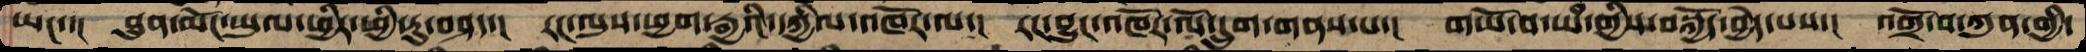ཡང་་།  ཐུན་མོང་ཡུལ་ཕྱིར་ཕྱི་རུ་བཤད་།   རང་ལུས་ཕྱག་རྒྱའི་དཀྱིལ་འཁོར་ལ་།  རང་བྱུང་འཁོར་ལོ་དྲུག་གནས་པ་།  གཡོ་བ་ཡཾ་གྱིས་བསྐྱོད་བྱེད་པས་།  འགྲོ་བ་ཀུན་གྱི་
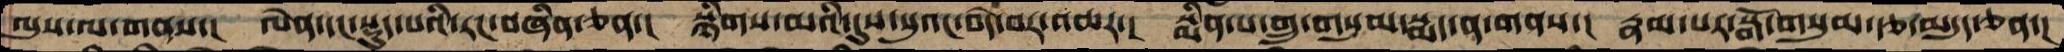ལུས་ལ་གནས་།   ལེན་དང་སྡུད་པའི་རང་བཞིན་ཅན་།  སྙིགས་མའི་དུས་སུའང་བདེ་བར་འཆར་།  སྨིན་པ་གྲུ་གསུམ་སྨད་ན་གནས་།  རྣམ་པར་སྒོ་གསུམ་རྩ་མདུད་ཅན་།
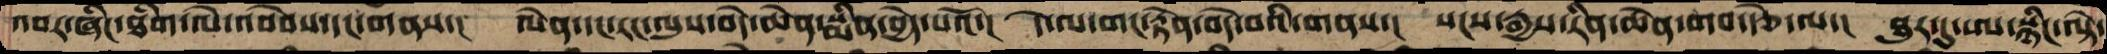འབར་ཤིང་ཐིག་ལེ་འབེབས་དང་གནས་།  ལེན་དང་རང་ལུས་བདེ་ཆེན་སྨིན་བྱེད་པའོ་།  དེ་ལ་གང་རྟེན་བདེ་བའི་གནས་།  སངས་རྒྱས་རིན་ཆེན་གབ་རྩེ་ལ་།  ཐུར་དུ་ཨ་སྙིང་ལྟེ་
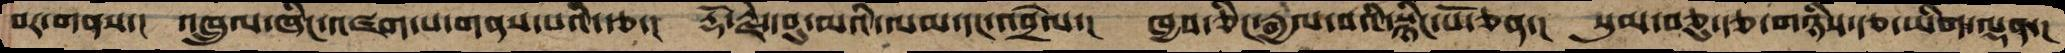བར་གནས་།  འཁྲུལ་ཞིང་འཛག་པ་གནས་པའི་རྩ་།   རྡོ་རྗེ་དབུ་མའི་ལམ་དང་འབྲེལ་།  ཁྱབ་ཅིང་རྒྱལ་བའི་སྙིང་པོ་ཅན་།  སུམ་བཅུ་རྩ་གཉིས་རྩ་ཡིག་ལྡན་།
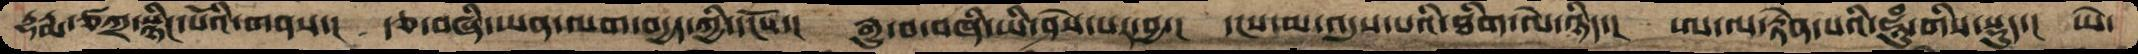དྷརྨ་ཙཀྲ་སྙིང་པོའི་གནས་།  རྩ་བཞི་ཡན་ལག་བདྱད་ཀྱི་དངོས་།  རྒྱུ་བ་བཞི་ཡི་ཤེས་པར་བྱ་།  དངས་མ་འདུས་པའི་ཐིག་ལེ་ཉིད་།  ཨ་ལ་རྟེན་པའི་ཧཱུཾ་གིས་སྡུད་།  ཡེ་
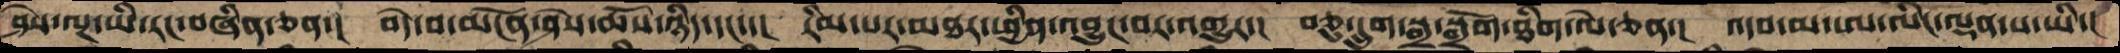ཤེས་ལྔ་ཡི་རང་བཞིན་ཅན་།  བདེ་བ་མངོན་ཤེས་ཆོས་ཉིད་དང་་།  རིམ་པར་མཐར་ཕྱིན་འབྱུང་བར་འགྱུར་།  བཅུ་དྲུག་སྒྲ་སྒྲོག་ཐིག་ལེ་ཅན་།  འདབ་མ་ཨ་ལིང་ལྡན་པ་ཡི་།
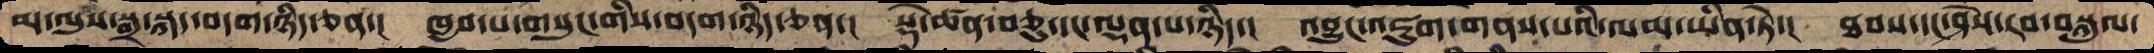མ་ལུས་སྒྲ་སྐད་བདག་ཉིད་ཅན་།  ཁྱབ་པ་གསུང་གིས་བདག་ཉིད་ཅན་།  སྡེ་ཚན་བཅུ་དང་ལྡན་པ་ཉིད་།  འབྱུང་འཇུག་གནས་པའི་ལམ་ཡིན་ཏེ་།  ཐབས་དང་ཤེས་རབ་བསྐུལ་
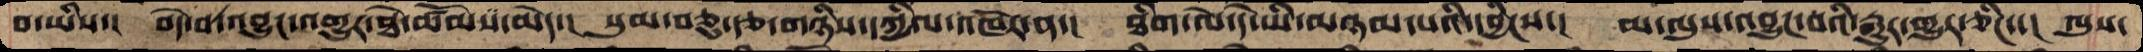བ་ཡིས་།  བདེ་བ་འབྱུང་འགྱུར་ཐེ་ཚོམས་མེད་།  སུམ་བཅུ་རྩ་གཉིས་དཀྱིལ་འཁོར་ན་།  ཐིག་ལེ་དེ་ཡི་མཉམ་པའི་དབྱིངས་།  མ་ལུས་འབྱུང་བའི་རྒྱུར་གྱུར་ཅིང་་།  ལུས་
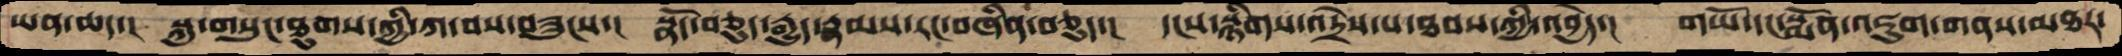ཡན་ཆད་།  སྐུ་གསུང་ཐུགས་ཀྱི་ཀ་བས་བཟུངས་། སྣོད་བཅུད་རྒྱུད་རྣམས་རང་བཞིན་བཅུད་།  དངས་སྙིགས་འདྲེས་པ་ཐབས་ཀྱི་འབྱེད་།  གཡོ་དང་སྨོན་འཇུག་གནས་མཐར་
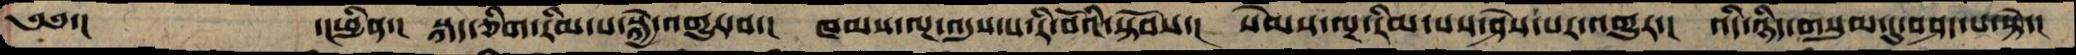༄༅་།         ་།ཕྱིན་།  སྐད་ཅིག་རིམ་པ་སྐྱེ་འགྱུར་བ་།  ཁམས་ལྔ་འདུས་པ་རི་བོའི་སྟོབས་།  སེམས་ལྔ་རིམ་པས་ཤེས་པར་འགྱུར་།  འདི་ཉིད་གསུམ་དུ་བཤད་པ་སྟེ་།
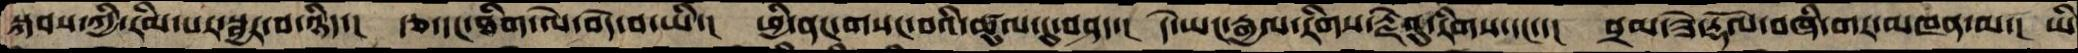སྐབས་ཀྱི་རིམ་པར་སྦྱར་བ་ཉིད་།  རྩ་དང་ཐིག་ལེ་བདེ་བ་ཡི་།  ཕྱི་ནང་གསང་བའི་ཚུལ་དུ་བཤད་།  དེ་ཡང་རྒྱལ་རིགས་རྗེའུ་རིགས་དང་།  བྲམ་ཟེ་རྡོལ་བཞི་གར་མཁན་མ་།  ཡི
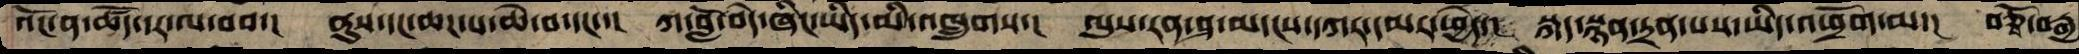འོང་ན་ཚོད་དར་ལ་བབ་།  ནུས་དང་ཆཌ་པ་ཆེ་བ་དང་་།   ཀ་བློ་བདེ་ཞིང་ཡིད་མི་འཁྲུགས་།  ལུས་རན་ཤ་མདངས་དཀར་དམར་ཕྱེད་།  སྐད་སྙན་དྲན་པས་ཡིད་འཕྲོག་མ་།  བཅྭོ་བརྒྱ
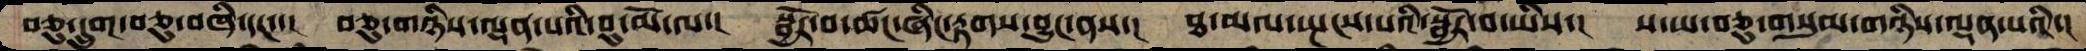བཅུ་དྲུག་བཅུ་བཞི་དང་་།  བཅུ་གཉིས་ལྡན་པའི་བུ་མོ་ལ་།  སྦྱོར་བ་ཚང་ཞིང་རྟགས་བྱུང་ནས་།  ཐ་མལ་སྤངས་པའི་སྦྱོར་བ་ཡིས་།  ས་ཡ་བཅུ་གསུམ་གཉིས་ལྡན་པའི་།
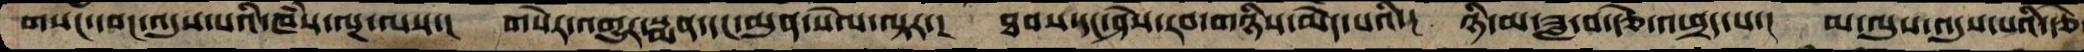གསང་དབང་འདུས་པའི་ཁཾས་ལྔ་ལས་།  གསེར་འགྱུར་སྨན་དང་མུན་སེལ་ལྟར་།  ཐབས་དང་ཤེས་རབ་གཉིས་མེད་པའི་།  ཉི་མ་ཟླ་བ་རྩེ་འཕྲད་པ་།  མ་ལུས་འདུས་པའི་རྩེ
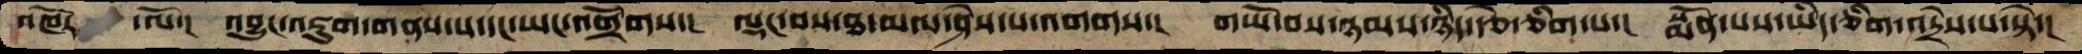འཁོར་  ལོ་།   འབྱུང་འཇུག་གནས་པ་དང་ཡང་འགྲོགས་།  ལྡང་བས་ཐ་མལ་ཤེས་པ་འགགས་།  གཡོ་བས་ཉམས་ཉིད་རྩེ་ཅིག་པ་།  སྨོན་པས་ཡིད་ཅིག་འདྲེས་པ་སྟེ་།
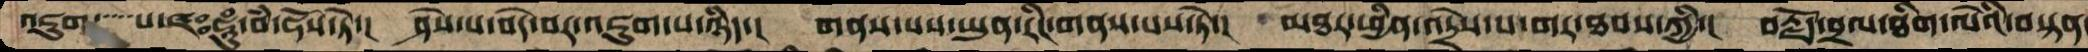འཇུག་་་་པ་ཛཿཧཱུཾ་བཾ་ཧོས་ཏེ་།  ཤེས་པ་བདེ་བར་འཇུག་པ་ཉིད་།  གནས་པས་ཡུན་རིང་གནས་པས་ཏེ་།  མཐར་ཕྱིན་འདྲེས་པ་གར་ཐབས་ཀྱི་།  བརྗོད་བྲལ་ཐིག་ལེའི་བསྟན་
